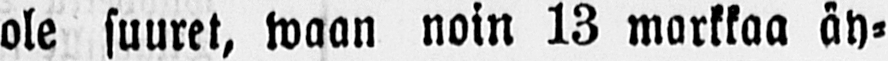ole suuret, waan noin 13 markkaa äy-
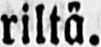riltä.
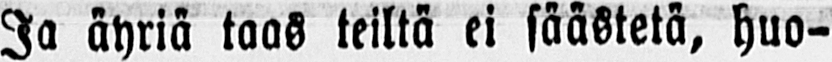Ja äyriä taas teiltä ei säästetä, huo-
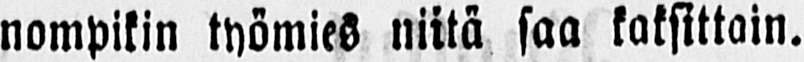nompikin työmies niitä saa kaksittain.
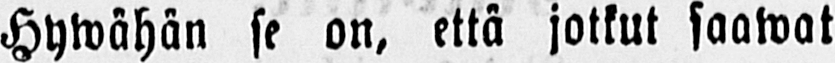Hywähän se on, että jotkut saawat
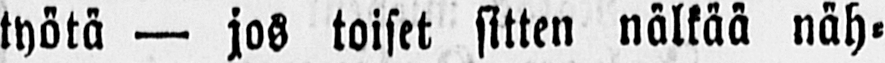työtä — jos toiset sitten nälkää näh-
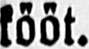kööt.
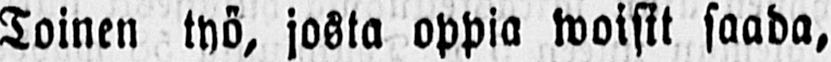Toinen työ, josta oppia woisit saada,
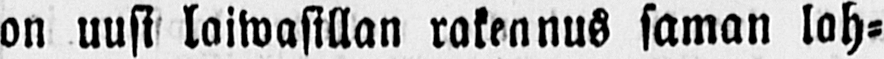on uusi laiwasillan rakennus saman lah-
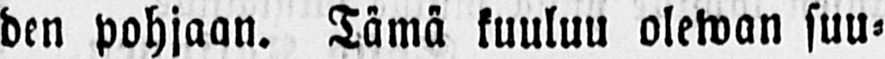den pohjaan. Tämä kuuluu olewan suu-
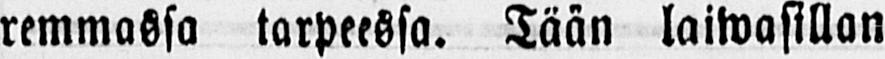remmassa tarpeessa. Tään laiwasillan
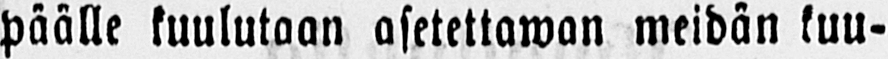päälle kuulutaan osetettawan meidän kuu-
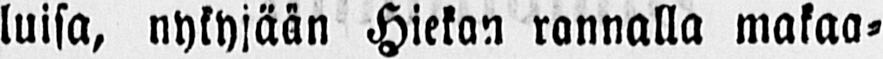luisa, nykyjään Hiekan rannalla makaa-
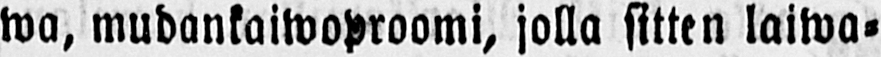wa, mudankaiwoproomi, jolla sitten laiwa-
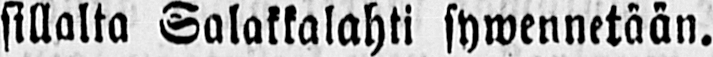sillalta Salakkalahti sywennetään.
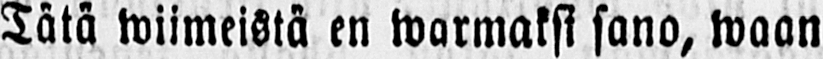Tätä wiimeistä en warmaksi sano, waan
